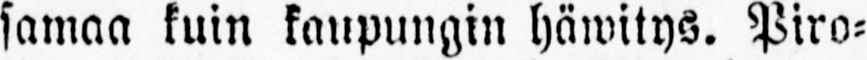samaa kuin kaupungin häwitys. Piro-
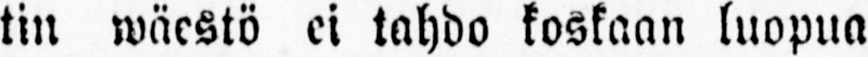tin wäestö ei tahdo koskaan luopua
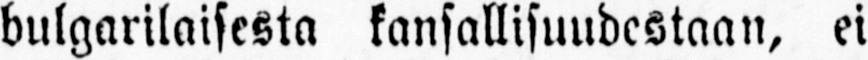bulgarilaisesta kansallisuudestaan, ei
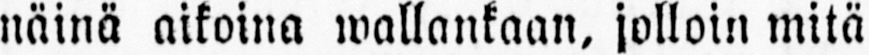näinä aikoina wallankaan, jolloin mitä
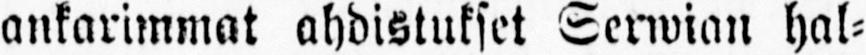ankarimmat ahdistukset Serwian hal-
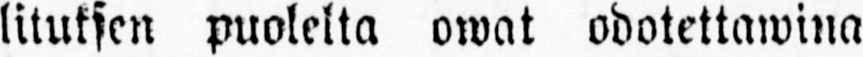lituksen puolelta owat odotettawina
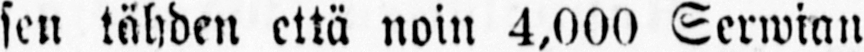sen tähden että noin 4,000 Serwian
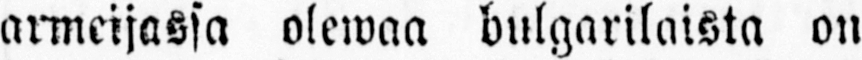armeijassa olewaa bulgarilaista on
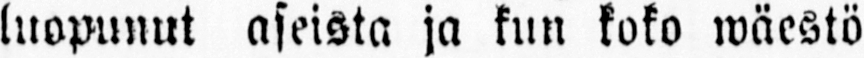luopunut aseista ja kun koko wäestö
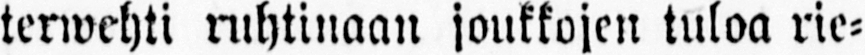terwehti ruhtinaan joukkojen tuloa rie-
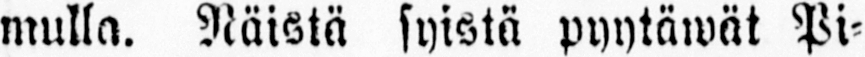mulla. Näistä syistä pyytäwät Pi-
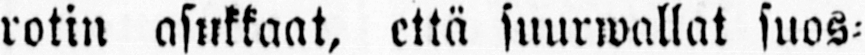rotin asukkaat, että suurwallat suos-
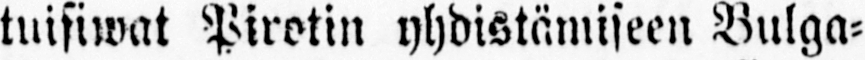tuisiwat Pirotin yhdistämiseen Bulga-
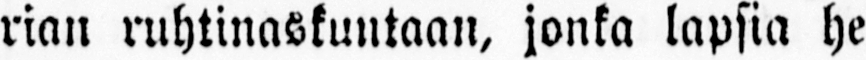rian ruhtinaskuntaan, jonka lapsia he
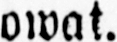owat.
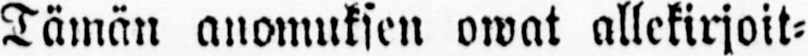Tämän anomuksen owat allekirjoit-
